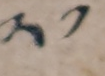༢༡
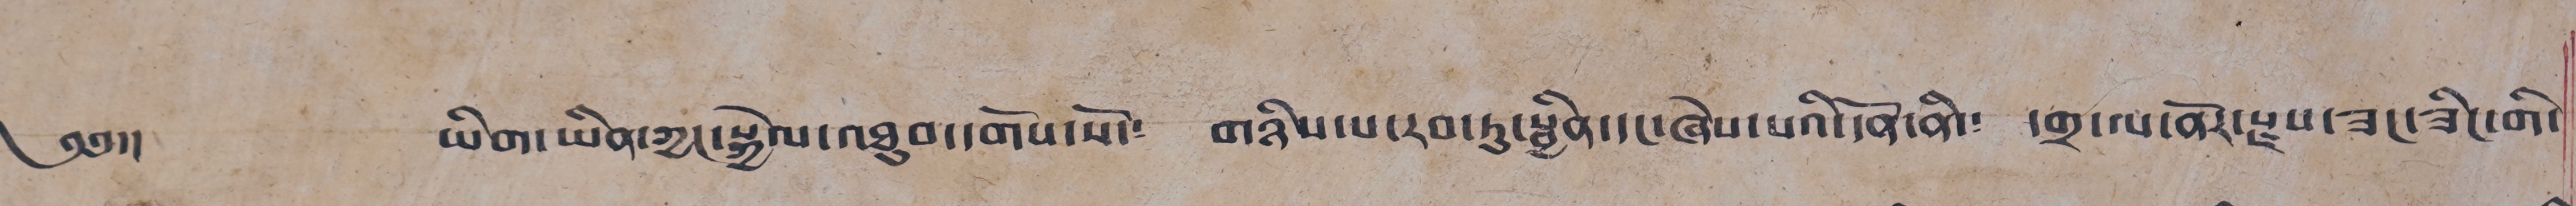༄༅།། ཡིག་ཡིན་ཀྱང་སྐྱེལ་འཐུབ་དགོས་སོ་། གཉིས་པ་རབ་ཏུ་སྦྱིན་དང་ཞེས་པའི་དོན་ནི་། དགྲ་ལ་ནོར་རྫས་ཟང་ཟིང་གི་
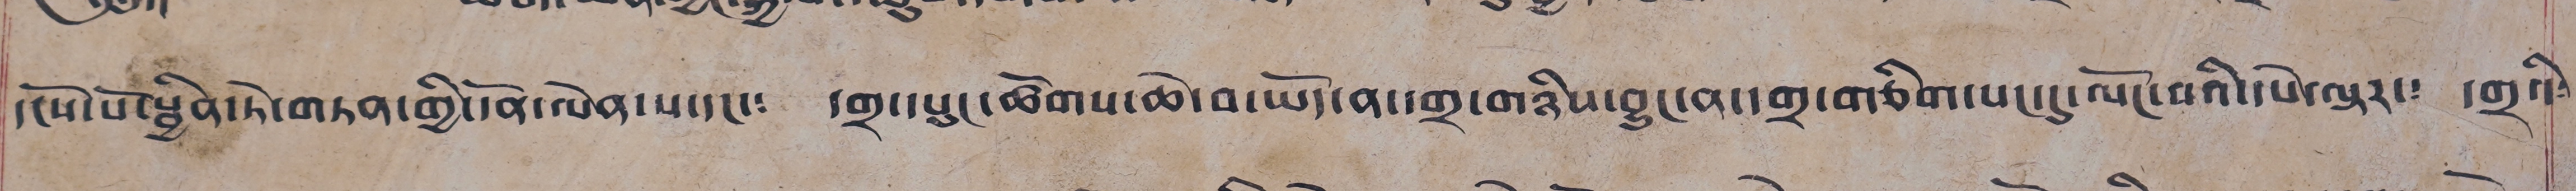དངོས་པོ་སྦྱིན་ཏེ་གཏན་གྱི་དོན་ལེན་པ་དང་། དགྲ་དཔུང་ཚོགས་ཆེ་བ་ཡོད་ན་དགྲ་གཉིས་བྱུང་ན་དགྲ་གཅིག་པང་དུ་ལོང་བའི་དཔེ་ལྟར་། དགྲའི་
